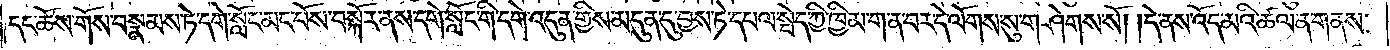དང་ཆོས་གོས་བསྣམས་ཏེ་དགེ་སློང་མང་པོས་བསྐོར་ནས་དགེ་སློང་གི་དགེ་འདུན་གྱིས་མདུན་དུ་བྱས་ཏེ་དཔལ་སྦེད་ཀྱི་ཁྱིམ་ག་ན་བར་དེ་ལོགས་སུ་གཤེགས་སོ། །དེ་ནས་འོད་མའི་ཚལ་ན་གནས་
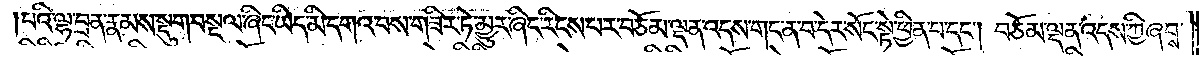པའི་ལྷ་བྲན་རྣམས་སྡུག་བསྔལ་ཞིང་ཡིད་མི་དགའ་བས་གཟིར་ཏེ་མྱུར་ཞིང་རིངས་པར་བཅོམ་ལྡན་འདས་གང་ན་བ་དེར་སོང་སྟེ་ཕྱིན་པ་དང༌། བཅོམ་ལྡན་འདས་ཀྱི་ཞབས་
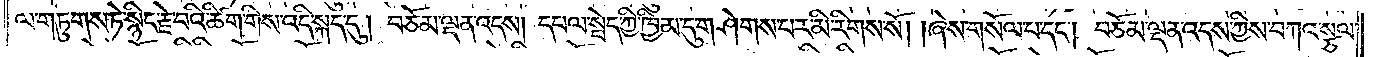ལ་གཏུགས་ཏེ་སྙིང་རྗེ་བའི་ཚིག་གིས་འདི་སྐད་དུ། བཅོམ་ལྡན་འདས། དཔལ་སྦེད་ཀྱི་ཁྱིམ་དུ་གཤེགས་པར་མི་རིགས་སོ། །ཞེས་གསོལ་པ་དང༌། བཅོམ་ལྡན་འདས་ཀྱིས་བཀའ་སྩལ་
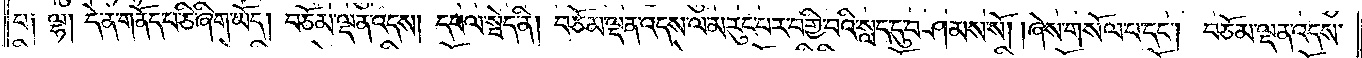པ༑ ལྷ། དེ་ན་གནོད་པ་ཅི་ཞིག་ཡོད། བཅོམ་ལྡན་འདས། དཔལ་སྦེད་ནི། བཅོམ་ལྡན་འདས་ལ་མ་རུང་པར་བགྱི་བའི་སླད་དུ་བཤམས་སོ། །ཞེས་གསོལ་པ་དང༌། བཅོམ་ལྡན་འདས་
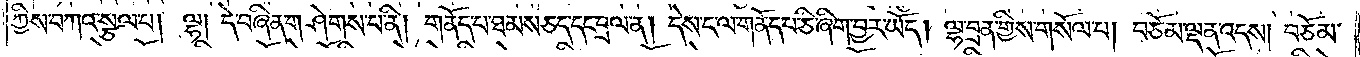ཀྱིས་བཀའ་སྩལ་པ། ལྷ། དེ་བཞིན་གཤེགས་པ་ནི། གནོད་པ་ཐམས་ཅད་དང་བྲལ་ན། དེས་ང་ལ་གནོད་པ་ཅི་ཞིག་བྱར་ཡོད། ལྷ་བྲན་གྱིས་གསོལ་པ། བཅོམ་ལྡན་འདས། བཅོམ་
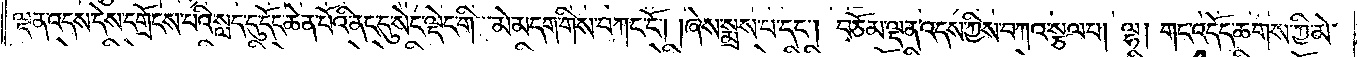ལྡན་འདས་དེས་དགྲོངས་པའི་སླད་དུ་དོང་ཆེན་པོའི་ནང་དུ་སེང་ལྡེང་གི་མེ་མདག་གིས་བཀང་ངོ༌། །ཞེས་སྨྲས་པ་དང༌། བཅོམ་ལྡན་འདས་ཀྱིས་བཀའ་སྩལ་པ། ལྷ། གང་འདོད་ཆགས་ཀྱི་མེ་
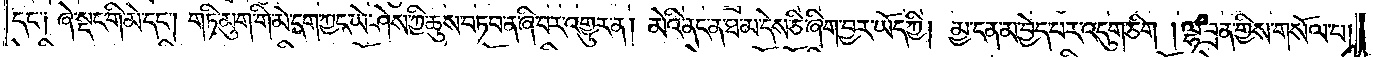དང༌༑ ཞེ་སྡང་གི་མེ་དང༌། གཏི་མུག་གི་མེ་དག་ཀྱང་ཡེ་ཤེས་ཀྱི་ཆུས་བཏབ་ན་ཞི་བར་འགྱུར་ན། མེའི་ནང་ན་ཐ་མ་དེས་ཅི་ཞིག་བྱར་ཡོད་ཀྱི། མྱ་ངན་མ་བྱེད་པར་འདུག་ཅིག །ལྷ་བྲན་གྱིས་གསོལ་པ།
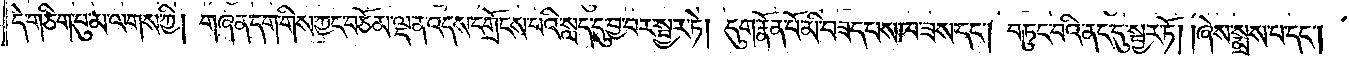དེ་གཅིག་པུ་མ་ལགས་ཀྱི། གཞན་དག་གིས་ཀྱང་བཅོམ་ལྡན་འདས་དགྲོངས་པའི་སླད་དུ་བྱ་བར་སྦྱར་ཏེ། དུག་རྣོན་པོ་མི་བཟད་པས་ཁ་ཟས་དང༌། བཏུང་བའི་ནང་དུ་སྦྱར་ཏོ། །ཞེས་སྨྲས་པ་དང༌།
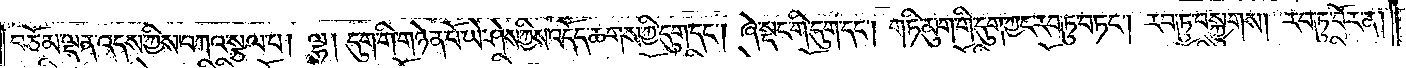བཅོམ་ལྡན་འདས་ཀྱིས་བཀའ་སྩལ་པ། ལྷ། དུག་གི་གཉེན་པོ་ཡེ་ཤེས་ཀྱིས་འདོད་ཆགས་ཀྱི་དུག་དང༌། ཞེ་སྡང་གི་དུག་དང༌། གཏི་མུག་གི་དུག་ཀྱང་རབ་ཏུ་བཏང༌། རབ་ཏུ་བསྐྱུགས། རབ་ཏུ་བོར་ན།
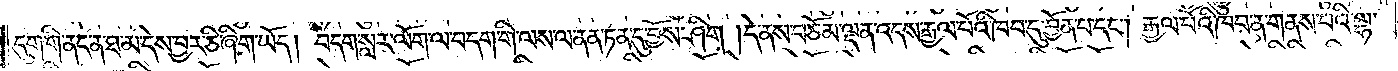དུག་གི་ནང་ན་ཐ་མ་དེས་བྱར་ཅི་ཞིག་ཡོད། བདག་སླར་ལོག་ལ་བདག་གི་ལས་ལ་ནན་ཏན་དུ་བྱོས་ཤིག །དེ་ནས་བཅོམ་ལྡན་འདས་རྒྱལ་པོའི་ཁབ་ཏུ་བྱོན་པ་དང༌། རྒྱལ་པོའི་ཁབ་ན་གནས་པའི་ལྷ་
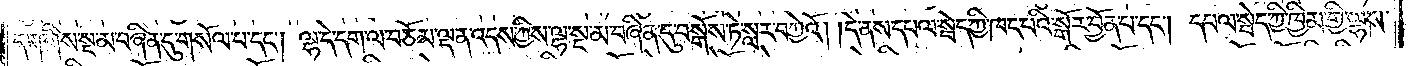དག་གིས་སྔ་མ་བཞིན་དུ་གསོལ་པ་དང༌། ལྷ་དེ་དག་ལ་བཅོམ་ལྡན་འདས་ཀྱིས་ལྷ་སྔ་མ་བཞིན་དུ་བསྒོས་ཏེ་སླར་བཀྱེའོ། །དེ་ནས་དཔལ་སྦེད་ཀྱི་ཁང་པའི་སྒོར་བྱོན་པ་དང༌། དཔལ་སྦེད་ཀྱི་ཁྱིམ་གྱི་ལྷས་
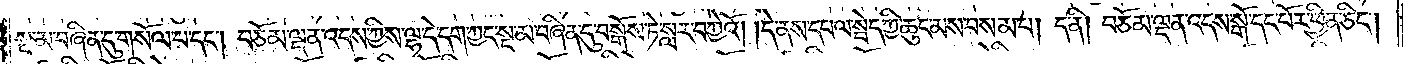སྔ་མ་བཞིན་དུ་གསོལ་པ་དང༌། བཅོམ་ལྡན་འདས་ཀྱིས་ལྷ་དེ་དག་ཀྱང་སྔ་མ་བཞིན་དུ་བསྒོས་ཏེ་སླར་བཀྱེའོ། །དེ་ནས་དཔལ་སྦེད་ཀྱི་ཆུང་མས་བསམ་པ། ད་ནི། བཅོམ་ལྡན་འདས་སྒོ་དང་པོར་ཕྱིན་ཅིང༌།
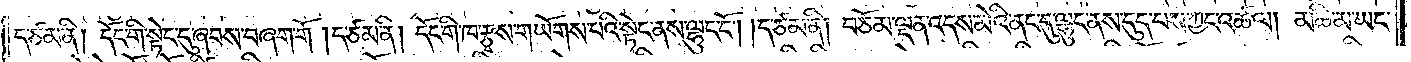ད་ཙམ་ནི། དོང་གི་སྟེང་དུ་ཞབས་བཞག་གོ །ད་ཙམ་ནི། དོང་གི་ཁ་རྩྭས་གཡོགས་པའི་སྟེང་ནས་ལྷུང་ངོ༌། །ད་ཙམ་ནི། བཅོམ་ལྡན་འདས་མེའི་ནང་དུ་ལྷུང་ནས་དུད་པས་ཀྱང་འཚལ། མཆི་མ་ཡང་
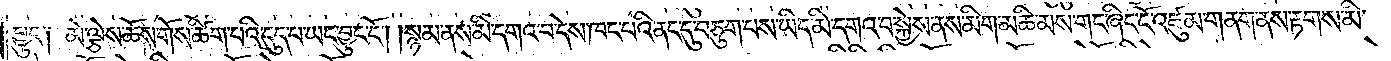བྱུང༌༑ མེ་ལྕེས་ཆོས་གོས་ཚིག་པའི་དུད་པ་ཡང་བྱུང་ངོ༌། །སྙམ་ནས་མི་དགའ་བ་དེས་ཁང་པའི་ནང་དུ་བཅུག་པས་ཡིད་མི་དགའ་བ་སྐྱེས་ནས་མིག་མཆི་མས་གང་ཞིང་ངོ་འཛུམ་གནས་ནས་རྟགས་མི་
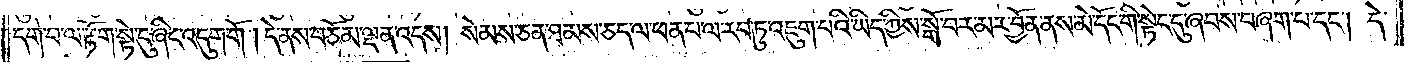དགེ་བ་ལ་རྟོག་སྟེ་ངུ་ཞིང་འདུག་གོ །དེ་ནས་བཅོམ་ལྡན་འདས། སེམས་ཅན་ཐམས་ཅད་ལ་ཕན་པ་ལ་རབ་ཏུ་འཇུག་པའི་ཡིད་ཀྱིས་སྒོ་བར་མར་བྱོན་ནས་མེ་དོང་གི་སྟེང་དུ་ཞབས་བཞག་པ་དང༌། དེ་
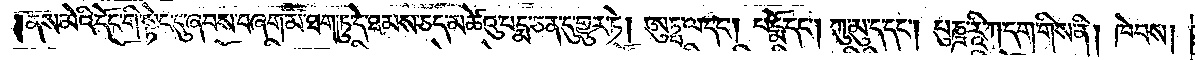ནས་མེའི་དོང་གི་སྟེང་དུ་ཞབས་བཞག་མ་ཐག་ཏུ་དེ་ཐམས་ཅད་མཚེའུ་པདྨ་ཅན་དུ་གྱུར་ཏེ། ཨུཏྤ་ལ་དང༌། པདྨོ་དང༌། ཀུ་མུ་ད་དང༌། པུཎྜ་རཱི་ཀ་དག་གིས་ནི། ཁེབས་
